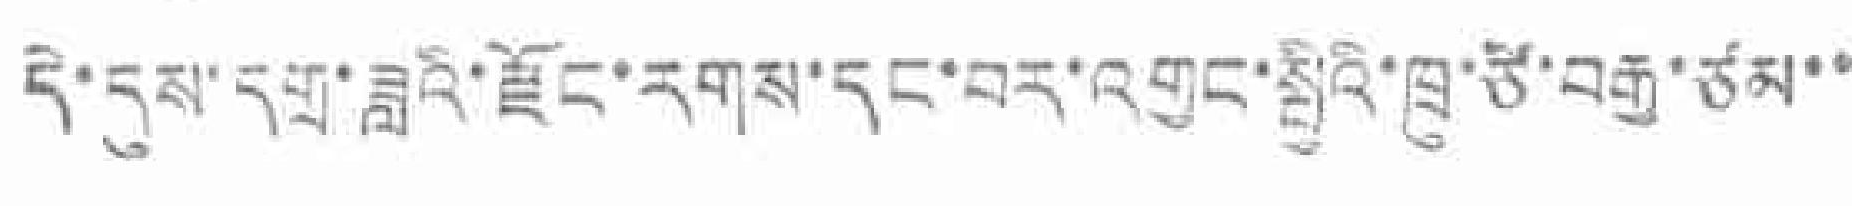དེ་དུས་དགྲ་ཟླའི་རྫོང་རགས་དང་བར་འགྱང་སྤྱིའི་ཁྲུ་ཙེ་བརྒྱ་ཙམ་་
